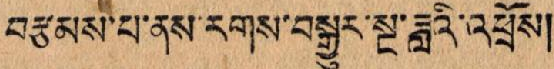བརྩམས་པ་ནས་རགས་བསྒྱུར་སྔ་ཟླའི་འཕྲོས།
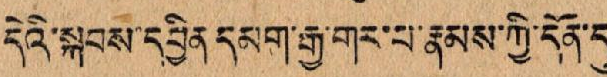དེའི་སྐབས་དབྱིན་དམག་རྒྱ་གར་པ་རྣམས་ཀྱི་དོན་དུ་
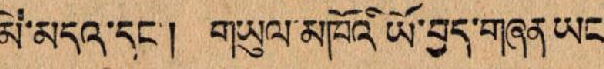མེ་མདའ་དང་། གཡུལ་མཁོའི་ཡོ་བྱད་གཞན ཡང་
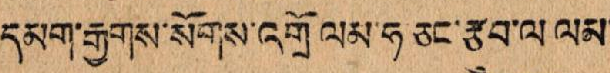དམག་རྒྱགས་སོགས་འགྲོ་ལམ་ཧ་ཅང་རྩུབ་ལ་ལམ་
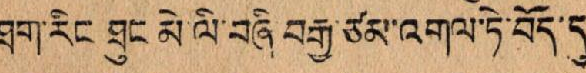ཐག་རིང ཐུང མེ་ལི་བཞི་བརྒྱ་ཙམ་འགལ་ཏེ་བོད་དུ་
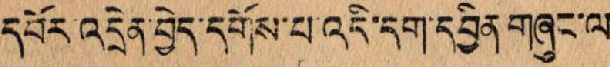དབོར་འདྲེན་བྱེད་དགོས་པ་འདི་དག་དབྱིན་གཞུང་ལ་
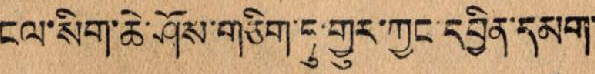ངལ་སིག་ཆེ་ཤོས་གཅིག་ཏུ་གྱུར་ཀྱང་དབྱིན་དམག་
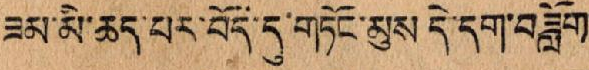ཟམ་མི་ཆད་པར་བོད་དུ་གཏོང་མུས དེ་དག་བཟློག་
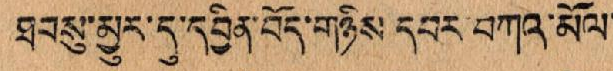ཐབསུ་མྱུར་དུ་དབྱིན་བོད་གཉིས དབར་བཀའ་མོལ་
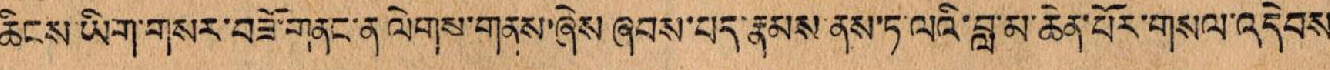ཆིངས་ཡིག་གསར་བཟོ་གནང་ན་ལེགས་གནས་ཞེས་ཞབས་པད་རྣམས་ནས་ཏ་ལའི་བླ་མ་ཆེན་པོར་གསལ་འདེབས་
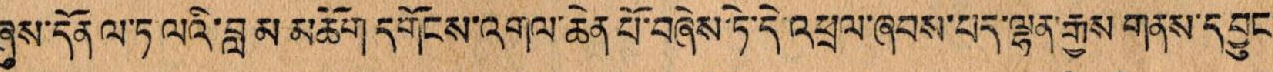ཞུས་དོན་ལ་ཏ་ལའི་བླ མ མཆོག་དགོངས་འགལ་ཆེན་པོ་བཞེས་ཏེ་དེ་འཕྲལ་ཞབས་པད་ལྷན་རྒྱས་གནས་དབྱུང་
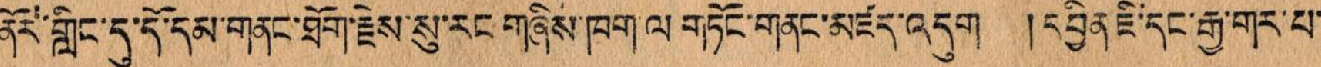ནོར་གླིང་དུ་དོ་དམ་གནང་ཐོག་རྗེས་སུ་རང་གཞིས་ཁག་ལ་གཏོང་གནང་མཛད་འདུག །དབྱིན་ཇི་དང་རྒྱ་གར་པ་
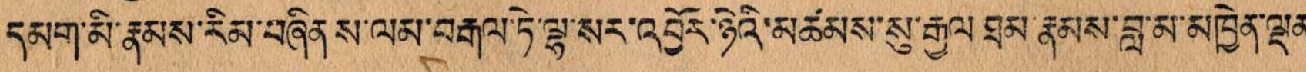དམག་མི་རྣམས་རིམ་བཞིན་ས་ལམ་བརྒལ་ཏེ་ལྷ་སར་འབྱོར་ཉེའི་མཚམས་སུ་རྒྱལ་ཐམ་རྣམས་བླ་མ་མཁྱེན་ལྡན་
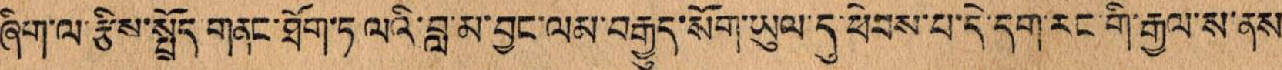ཞིག་ལ་རྩིས་སྤྲོད་གནང་ཐོག་ཏ་ལའི་བླ་མ་བྱང་ལམ་བརྒྱུད་སོག་ཡུལ་དུ་ཕེབས་པ་དེ་དག་རང་གི་རྒྱལ་ས་ནས་
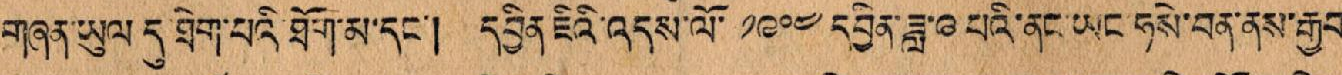གཞན་ཡུལ དུ་ཐེག་པའི་ཐོག་མ་དང་། དབྱིན་ཇིའི་འདས་ལོ་ ༡༩༠༤ དབྱིན་ཟླ་ ༩ པའི་ནང་ཡང་ཧསེ་བན་ནས་རྒྱབ་
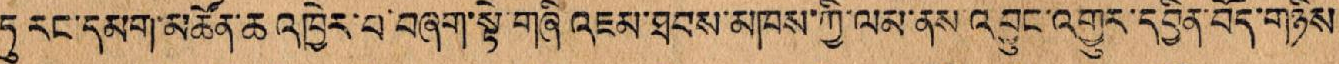ཏུ་རང་དམག་མཚོན་ཆ་འཁྱེར་བ་བཞག་སྟེ་གཞི་འཇམ་ཐབས་མཁས་ཀྱི་ལམ་ནས་འབྱུང་འགྱུར་དབྱིན་བོད་གཉིས་
